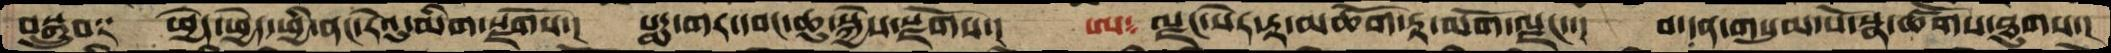བསྒྲུབ༑   ཕྱེད་ཕྱེད་ཕྱི་ནང་རེའུ་མིག་སྫོགས་།  པདྨ་གར་དབང་ཆུ་སྐྱེས་སྫོགས་།  ཨ༴ ལྗང་སེར་རྟ་མཆོག་རྟ་མགོ་ལྗང་་།  བ་དན་གསུམ་པོ་སྣ་ཚོགས་ཐུགས་།
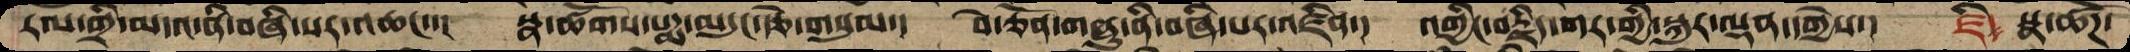རལ་གྲི་མདའ་ནི་བཞི་པར་འཆང་་།  སྣ་ཚོགས་པདྨ་མདུང་རྩེ་གསུམ་།  བེ་ཅོན་གཞུ་ནི་བཞི་པར་འཛིན་།  འགྱིང་བརྗིད་གར་གྱི་སྐུར་ལྡན་དགྱེས་།  ཛི༴ སྣ་ཚོཌ་
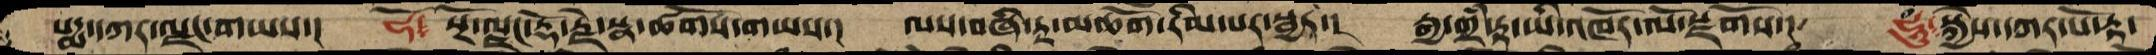པདྨ་དཀར་ལྗང་གཡས་།  ཧོ༴ སྔོ་ལྗང་རྡོ་རྗེ་སྣ་ཚོགས་གཡས་།  ལས་བཞི་རྟ་མཆོག་རིམ་པར་སྦྱར་།  རྒྱ་གྲཾ་རྟ་ཡི་འཁོར་ལོ་སྫོགས་།  ཧཱུཾ་སྐྱེས་དཀར་པོ་རྟ་
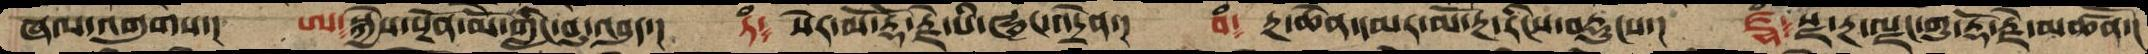ཞལ་འགུགས་།  ཨ་སྐྱེས་སྔོན་མོ་གླིང་བུ་འབུད་།  ཏཾ༴ སེར་མོ་རྡོ་རྗེ་པི་ཝང་འདྲེན་།  བཾ༴  རྔ་ཆེན་དམར་མོ་རྔ་རིངས་བརྡུངས་།  ཛྷཾ༴སྫ་རྔ་ལྗང་གུ་རྡོ་རྗེ་མཚོན་།
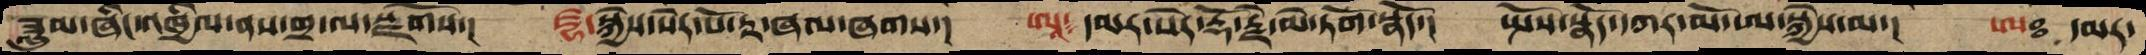ཟླུམ་ཞིང་འཁྱིལ་ནས་གྲ་ལ་སྫོགས་།  ཛྙ་སྐྱེས་སེར་པོ་རྟ་ཞལ་ཞགས་།  ཨཱ༴ དམར་སེར་རྡོ་རྗེ་མེ་ཏོག་སྣོད་།  སྤོས་སྣོད་དཀར་མོ་ཨ་སྐྱེས་མ་།  ཨཿ དམར་
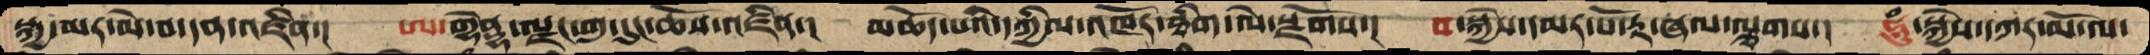སྐྱ་མར་མེ་བ་དན་འཛིན་།  ཨ་གྷེནྡྷ་ལྗང་གུ་དུང་ཆོས་འཛིན་།  མཆོད་པའི་དཀྱིལ་འཁོར་ཐིག་ལེ་སྫོགས་།  བ་སྐྱེས་དམར་པོ་རྟ་ཞལ་ལྕགས་།  ཧཱུཾ་སྐྱེས་དཀར་མོ་ལ་
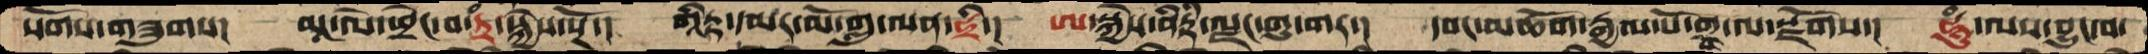སོགས་་གཟུགས།  མཱ་ལེ་ཕྲེང་བ་ཏྲཾ་སྐྱེས་སྔོ་།  གཱིརྟ་དམར་མོ་གླུ་ལན་ཧྲི་།  ཨ་སྐྱེས་ནིརྟི་ལྗང་གུ་གར་།  དབང་མཆོག་རྒྱལ་པོ་གྲྭ་ལ་སྫོགས་།  ཧཱུཾ་ལས་བྱུང་བ་
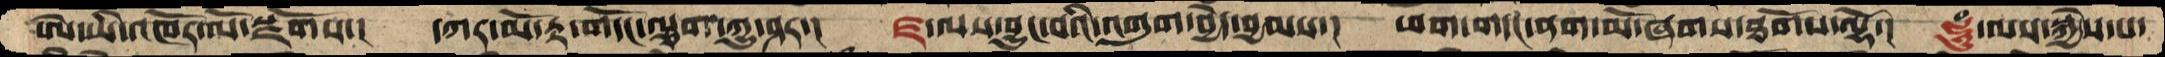ཨེ་ཡི་འཁོར་ལོ་སྫོགས་།  དཀར་མོ་རྟ་གདོང་ལྕག་ཀྱུ་ཤར་།  ཛ་ལས་བྱུང་བའི་འགུག་བྱེད་བྱམས་།  ཕག་གདང་ནག་མོ་ཞགས་ཐོགས་ལྷོ་།  ཧཱུཾ་ལས་སྐྱེས་པ་
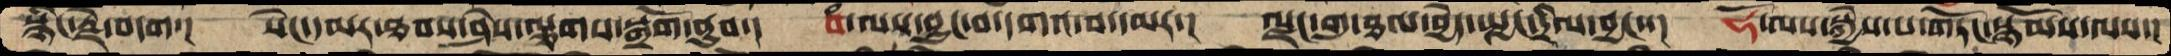སྙིང་རྗེ་བདག་།  སེང་དམར་ཐབས་ཤེས་ལྕགས་སྒྲོག་ནུབ་།  བཾ་ལས་བྱུང་བ་དགའ་བ་དམར་།  ལྗང་གུ་ཐལ་བྱེད་སྤྱང་དྲིལ་བྱང་་།  ཧོ་ལས་སྐྱེས་པ་གཏོང་སྙོམས་ལས་།
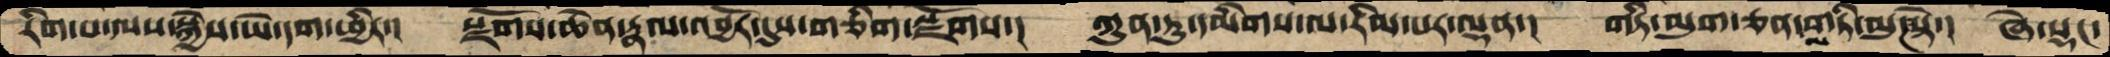རིག་པ་ལས་སྐྱེས་ཡེ་དག་ཕྱིར་།  སྫོགས་ཆེན་རྣལ་འབྱོར་དུས་གཅིག་སྫོགས་།  ཀུན་ཏུ་དམིགས་ལ་རིམ་པར་ལྡན་།  གཏི་མུག་ཅན་ལ་གཏི་མུཌསྟེ་།  ཞེ་སྡང་
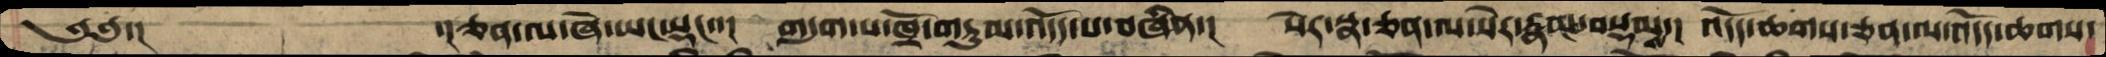༄༅་།   ་།ཅན་ལ་ཞེ་ཡང་སྡང་་།  གདུག་པ་ཁྲོ་གཏུམ་འདོད་པ་བཞིན་།  སེར་སྣ་ཅན་ལ་སེར་རྣམ་བསྡམས་།  འདོད་ཆགས་ཅན་ལ་འདོད་ཆགས་
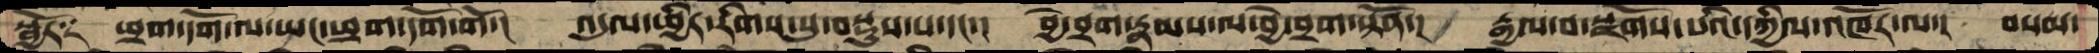སྦྱོར༑  ཕྲག་དོག་ལ་སྤང་ཕྲག་དོག་གོ་།  འདུལ་ཕྱིར་རིགས་སུ་བསྡུས་པ་དང་།  བྱེ་བྲག་རྣམས་ལ་བྱེ་བྲག་བསྟོན་།  རྒྱལ་བ་སྫོགས་པའི་དཀྱིལ་འཁོར་ལ་།  བསམ་
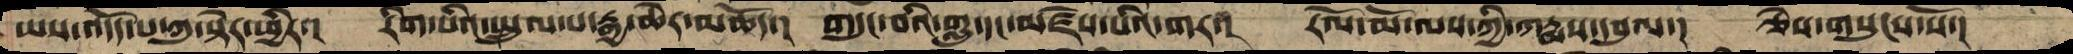ཡས་འདོད་པ་ཀུ་སྟེར་ཕྱིར་།  རིག་པའི་སྤྲུལ་པ་རྒྱ་ཆེར་མཆོད་།  གདུང་བའི་གླུ་དང་མཛེས་པའི་གར་།  རོལ་མོ་ལས་ཀྱི་ཀརྨས་དབུལ་།   ཅེས་གསུངས་སོ་།
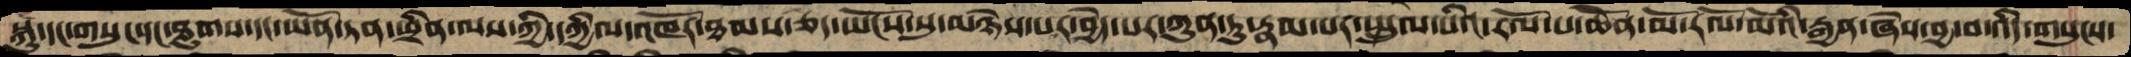སྐུ་དང་གསུང་དང་ཐུགས་དང་ཡོན་ཏནཕྲིན་ལས་ཀྱི་དཀྱིལ་འཁོར་ཐམས་ཅད་ཡོངས་སུ་མཉེས་པར་བྱེད་པར་ཀུན་ཏུ་རྣམ་པར་སྤྲུལ་པའི་རོལ་པ་ཆེན་མོ་རོལ་མོའི་རྒྱན་ཞེས་བྱ་བ་འདི་གསུངས་
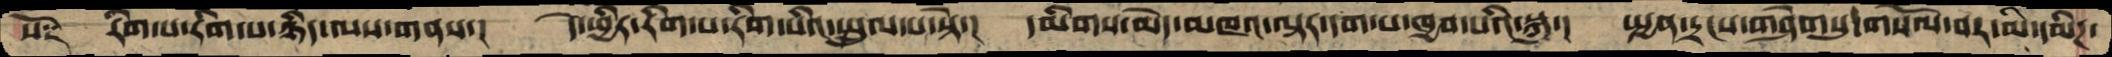ས༑   རིག་པ་རིག་པ་ཉིད་ལས་གནས་།  དེ་ཕྱིར་རིག་པ་རིག་པའི་སྤྲུལ་པ་སྟེ་།  དམིགས་མེད་མཁའ་ལྟར་དག་པ་ཁྱབ་པའི་སྐུ་།  སྤྱན་དྲངས་གཤེགསུ་གསོལ་བར་མི་དམིཌ་
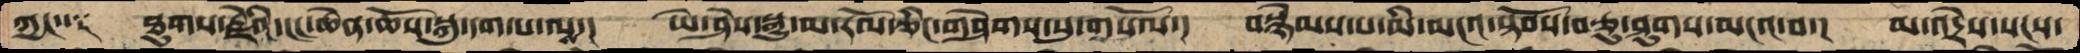ཀྱང་་༑ ཐུགས་རྗེའི་ངང་ཆེན་ཆོས་སྐུ་དག་པ་ལས་།  ཡེ་ཤེས་སྒྱུ་མ་རོལ་ཅིང་གཤེགས་སུ་གསོལ་།  བསྙོམས་པ་མི་མངའ་སྟོབས་བཅུ་ཤུགས་མངའ་བ་།  མ་འདྲེས་སངས་
